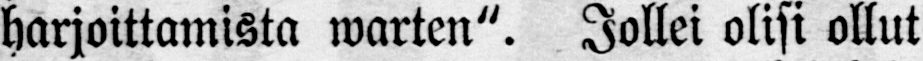harjoittamista warten". Jollei olisi ollut
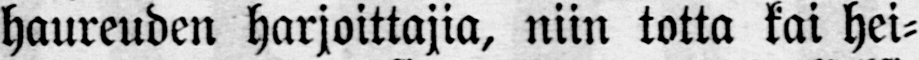haureuden harjoittajia, niin totta kai hei-
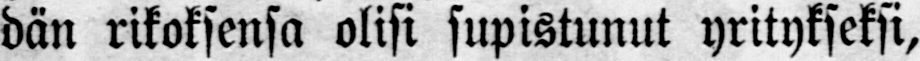dän rikoksensa olisi supistunut yritykseksi,
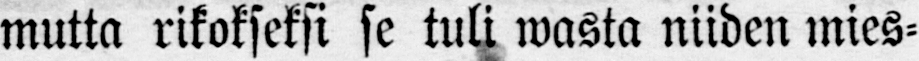mutta rikokseksi se tuli wasta niiden mies-
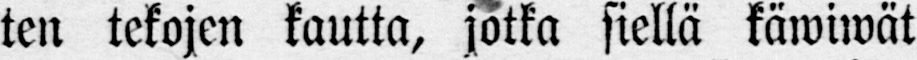ten tekojen kautta, jotka siellä käwiwät
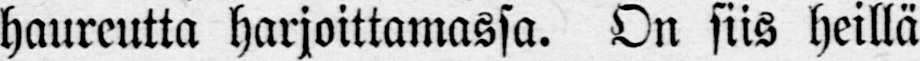haureutta harjoittamassa. On siis heillä
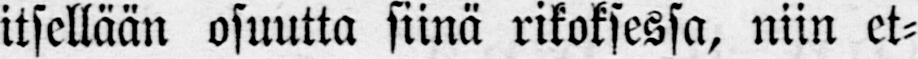itsellään osuutta siinä rikoksessa, niin et-
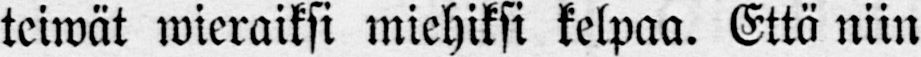teiwät wieraiksi miehiksi kelpaa. Että niin
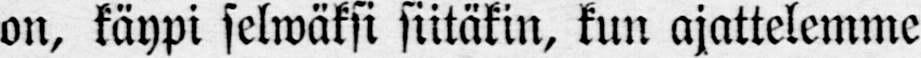on, käypi selwäksi siitäkin, kun ajattelemme
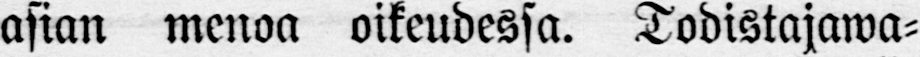asian menoa oikeudessa. Todistajawa-
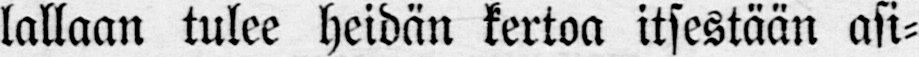lallaan tulee heidän kertoa itsestään asi-
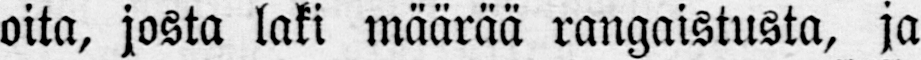oita, josta laki määrää rangaistusta, ja
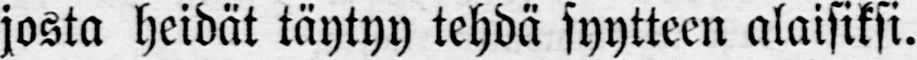josta heidät täytyy tehdä syytteen alaisiksi.
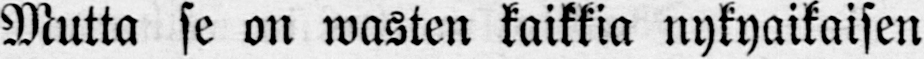Mutta se on wasten kaikkia nykyaikaisen
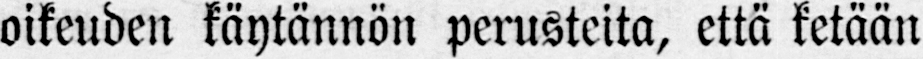oikeuden käytännön perusteita, että ketään
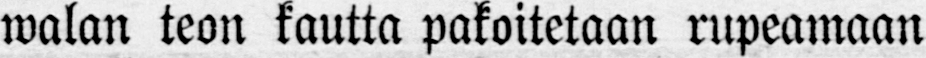walan teon kautta pakoitetaan rupeamaan
